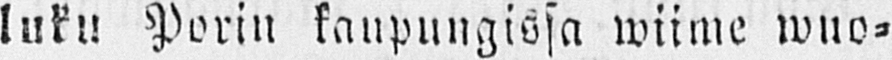luku Porin kaupungissa wiime wuo-
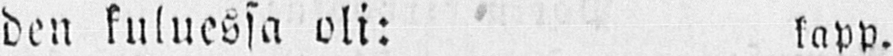den kuluessa oli: kapp.
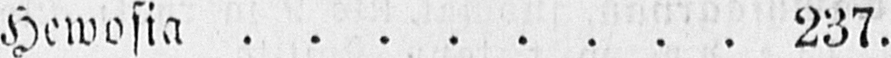Hewosia 237.
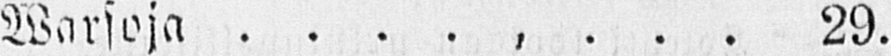Warsoja 29.
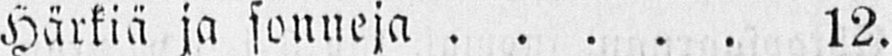Härkiä ja sonneja 12.
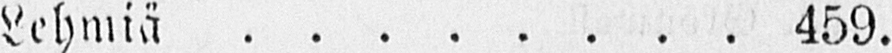Lehmiä 459.
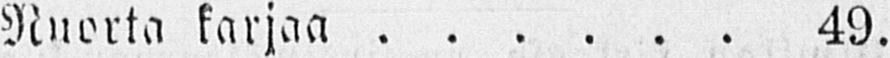Nuorta karjaa 49.
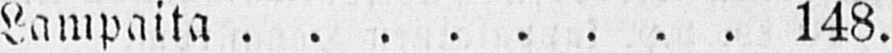Lampaita 148.
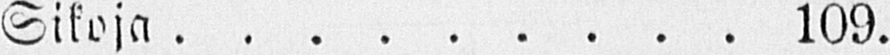Sikoja 109.
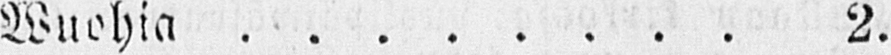Wuohia 2.
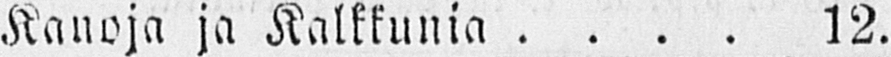Kanoja ja Kalkkunia 12.
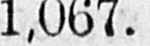Yhteensä 1,067.
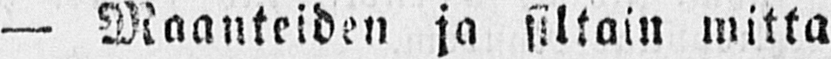— Maanteiden ja siltoin mitta
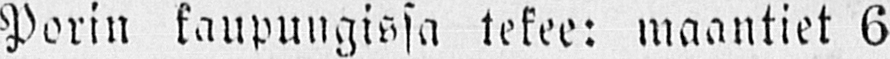Porin kaupungissa tekee: maantiet 6
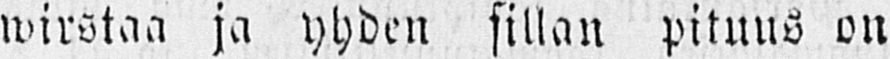wirstaa ja yhden sillan pituus on
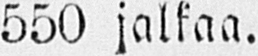550 jalkaa.
